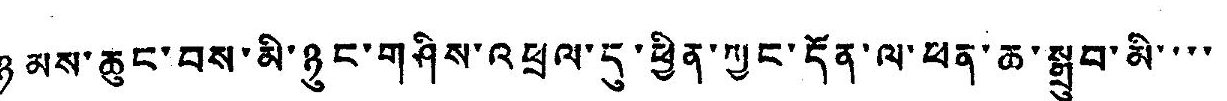ཉམས་ཆུང་བས་མི་ཉུང་གཤིས་འཕྲལ་དུ་ཕྱིན་ཀྱང་དོན་ལ་ཕན་ཆ་སྒྲུབ་མི་་་་
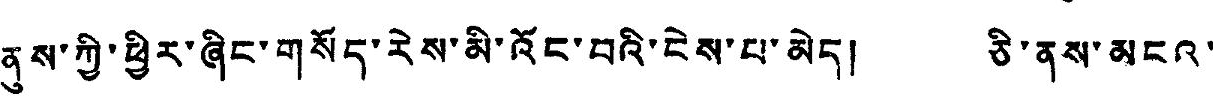ནུས་ཀྱི་ཕྱིར་ཞིང་གསོད་རེས་མི་འོང་བའི་ངེས་པ་མེད། ཅི་ནས་མངའ་
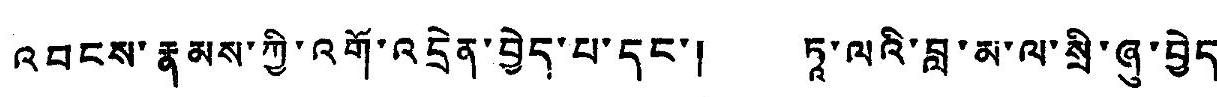འབངས་རྣམས་ཀྱི་འགོ་འདྲེན་བྱེད་པ་དང་། ཏཱ་ལའི་བླ་མ་ལ་སྲི་ཞུ་བྱེད་
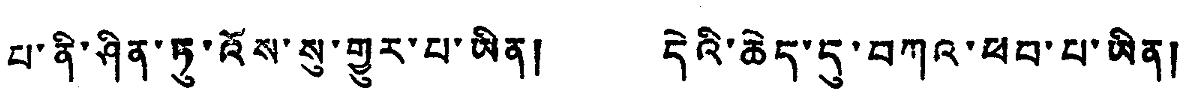པ་ནི་ཤིན་ཏུ་འོས་སུ་གྱུར་པ་ཡིན། དེའི་ཆེད་དུ་བཀའ་ཕབ་པ་ཡིན།
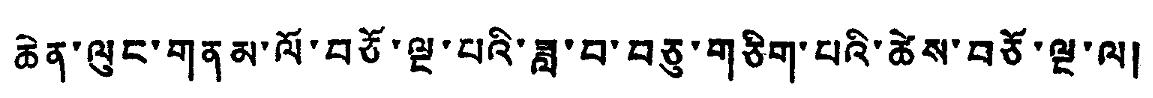ཆེན་ལུང་གནམ་ལོ་བཅོ་ལྔ་པའི་ཟླ་བ་བཅུ་གཅིག་པའི་ཚེས་བཅོ་ལྔ་ལ།
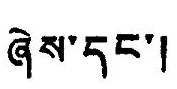ཞེས་དང་།
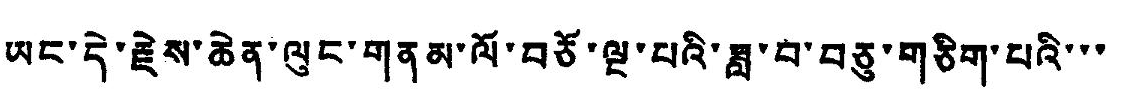ཡང་དེ་རྗེས་ཆེན་ལུང་གནམ་ལོ་བཅོ་ལྔ་པའི་ཟླ་བ་བཅུ་གཅིག་པའི་་་
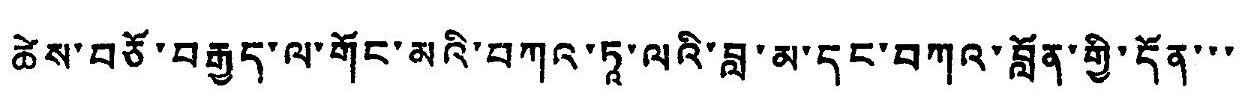ཚེས་བཅོ་བརྒྱད་ལ་གོང་མའི་བཀའ་ཏའ་ལའི་བླ་མ་དང་བཀའ་བློན་གྱི་དོན་་་
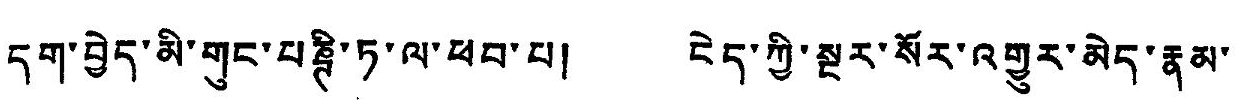དག་བྱེད་མི་གུང་པཎྚི་ཏ་ལ་ཕབ་པ། ངེད་ཀྱི་སྔ་སོར་འགྱུར་མེད་རྣམ་
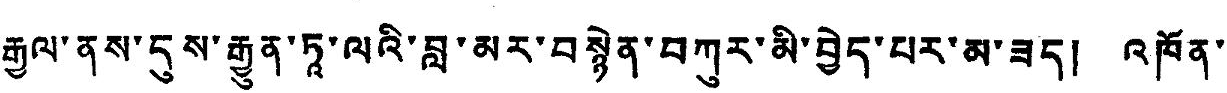རྒྱལ་ནས་དུས་རྒྱུན་ཏའ་ལའི་བླ་མར་བསྙེན་བཀུར་མི་བྱེད་པར་མ་ཟད། འཁོན་
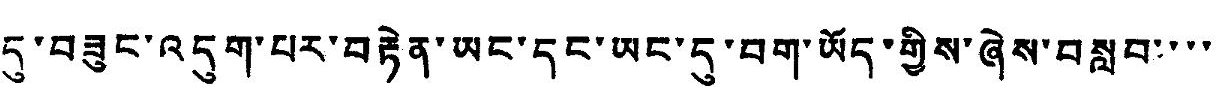དུ་བཟུང་འདུག་པར་བརྟེན་ཡང་དང་ཡང་དུ་བག་ཡོད་གྱིས་ཞེས་བསླབ་་་་
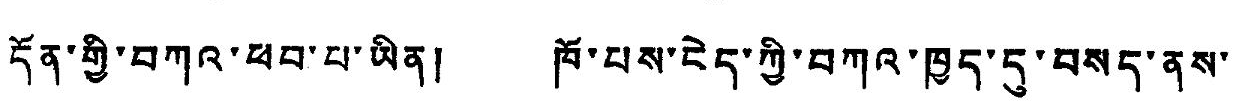དོན་གྱི་བཀའ་ཕབ་པ་ཡིན། ཁོ་པས་ངེད་ཀྱི་བཀའ་ཁྱད་དུ་བསད་ནས་
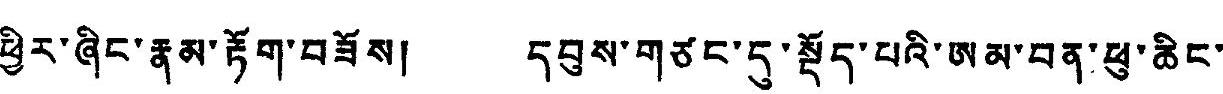ཕྱིར་ཞིང་རྣམ་རྟོག་བཟོས། དབུས་གཙང་དུ་སྡོད་པའི་ཨམ་བན་ཕུ་ཆིང་
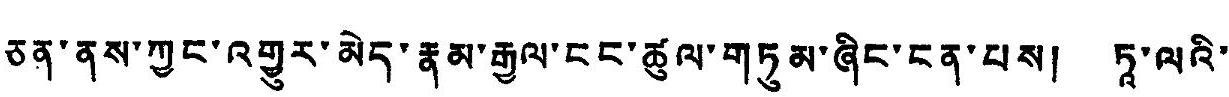ཅན་ནས་ཀྱང་འགྱུར་མེད་རྣམ་རྒྱལ་ངང་ཚུལ་གཏུམ་ཞིང་ངན་པས། ཏཱ་ལའི་
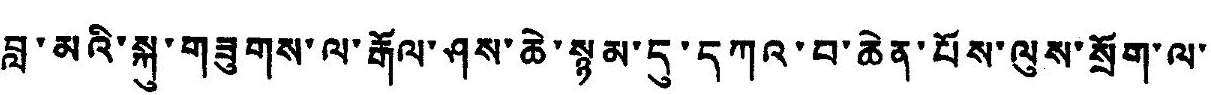བླ་མའི་སྐུ་གཟུགས་ལ་རྒོལ་ཤས་ཆེ་སྙམ་དུ་དཀའ་བ་ཆེན་པོས་ལུས་སྲོག་ལ་
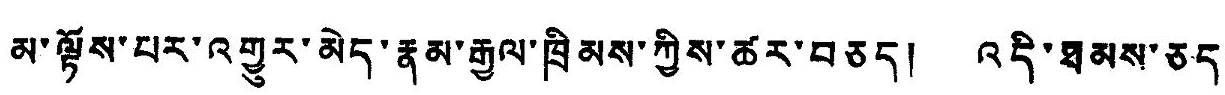མ་ལྟོས་པར་འགྱུར་མེད་རྣམ་རྒྱལ་ཁྲིམས་ཀྱིས་ཚར་བཅད། འདི་ཐམས་ཅད་
